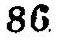86
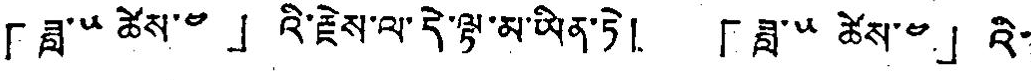「ཟླ་༥ ཚེས་༤ 」འི་རྗེས་ལ་དེ་ལྟ་མ་ཡིན་ཏེ། 「ཟླ་༥ ཚེས་༤ 」འི་
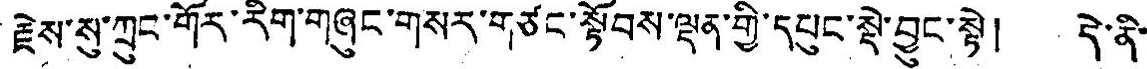རྗེས་སུ་ཀྲུང་གོར་རིག་གཞུང་གསར་གཙང་སྟོབས་ལྡན་གྱི་དཔུང་སྡེ་བྱུང་སྟེ། དེ་ནི་
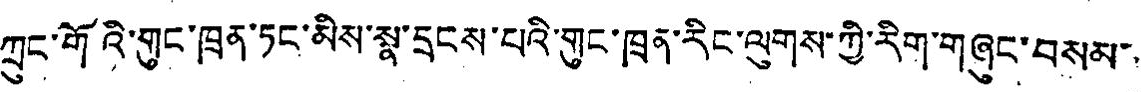ཀྲུང་གོའི་གུང་ཁྲན་ཏང་མིས་སྣ་དྲངས་པའི་གུང་ཁྲན་རིང་ལུགས་ཀྱི་རིག་གཞུང་བསམ་
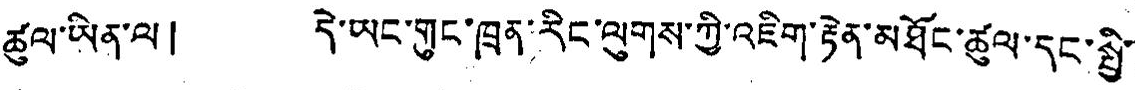ཚུལ་ཡིན་ལ། དེ་ཡང་གུང་ཁྲན་རིང་ལུགས་ཀྱི་འཇིག་རྟེན་མཐོང་ཚུལ་དང་སྤྱི་
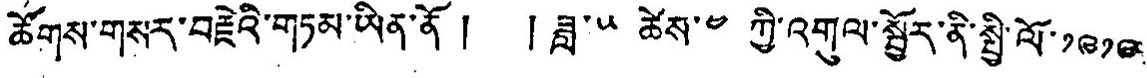ཚོགས་གསར་བརྗེའི་གཏམ་ཡིན་ནོ ། ། ཟླ་༥ ཚེས་༤ ཀྱི་འགུལ་སྦྱོར་ནི་སྤྱི་ལོ་༡༩༡༩
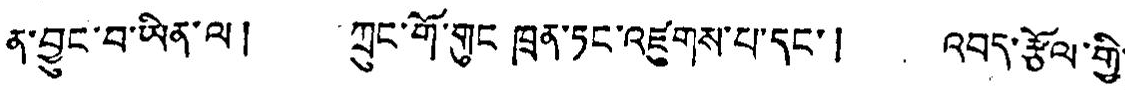ན་བྱུང་བ་ཡིན་ལ། ཀྲུང་གོ་གུང ཁྲན་ཏང་འཛུགས་པ་དང་། འབད་རྩོལ་གྱི་
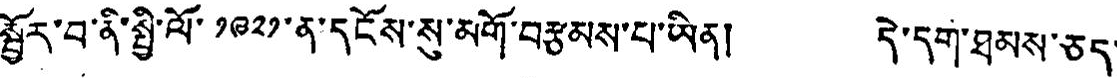སྦྱོར་བ་ནི་སྤྱི་ལོ་༡༩༢༡་ན་དངོས་སུ་མགོ་བརྩམས་པ་ཡིན། དེ་དག་ཐམས་ཅད་
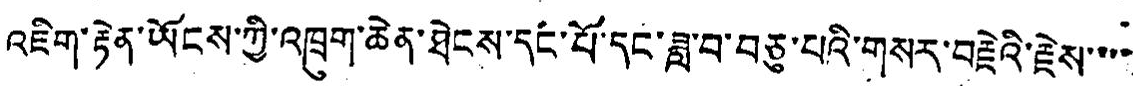འཇིག་རྟེན་ཡོངས་ཀྱི་འཁྲུག་ཆེན་ཐེངས་དང་པོ་དང་ཟླ་བ་བཅུ་པའི་གསར་བརྗེའི་རྗེས་་་་
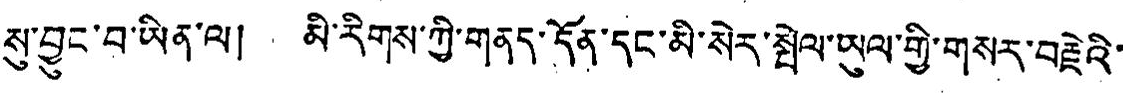སུ་བྱུང་བ་ཡིན་ལ། མི་རིགས་ཀྱི་གནད་དོན་དང་མི་སེར་སྤེལ་ཡུལ་གྱི་གསར་བརྗེའི་
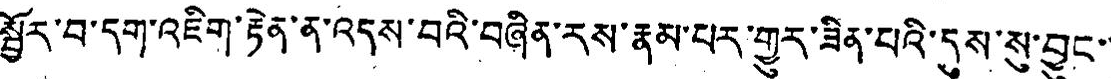སྦྱོར་བ་དག་འཇིག་རྟེན་ན་འདས་བའི་བཞིན་རས་རྣམ་པར་གྱུར་ཟིན་པའི་དུས་སུ་བྱུང་་
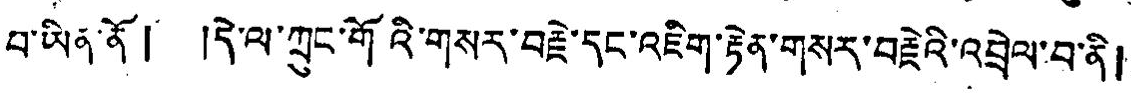བ་ཡིན་ནོ ། །དེ་ལ་ཀྲུང་གོའི་གསར་བརྗེ་དང་འཇིག་རྟེན་གསར་བརྗེའི་འབྲེལ་བ་ནི།
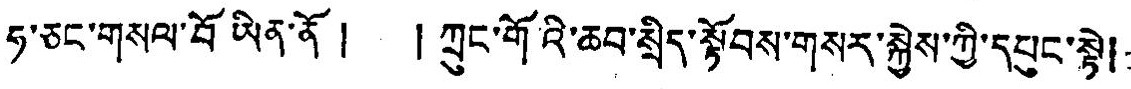ཧ་ཅང་གསལ་བོ་ཡིན་ནོ ། ། ཀྲུང་གོའི་ཆབ་སྲིད་སྟོབས་གསར་སྐྱེས་ཀྱི་དཔུང་སྟེ།
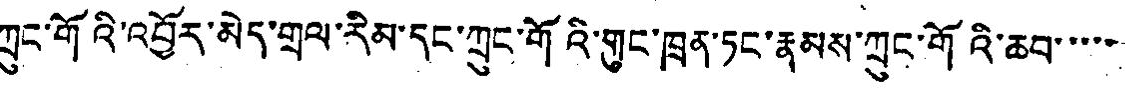ཀྲུང་གོའི་འབྱོར་མེད་གྲལ་རིམ་དང་ཀྲུང་གོའི་གུང་ཁྲན་ཏང་རྣམས་ཀྲུང་གོའི་ཆབ་་་་་
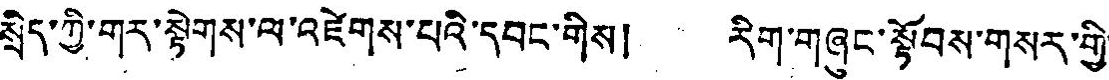སྲིད་ཀྱི་གར་སྟེགས་ལ་འཛེགས་པའི་དབང་གིས། རིག་གཞུང་སྟོབས་གསར་གྱི་
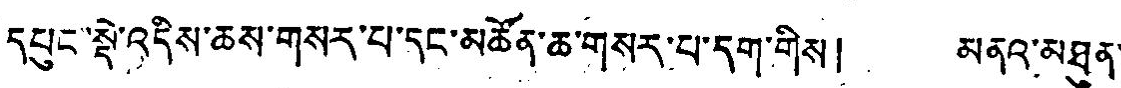དཔུང་སྡེ་འདིས་ཆས་གསར་པ་དང་མཚོན་ཆ་གསར་པ་དག་གིས། མནའ་མཐུན་
